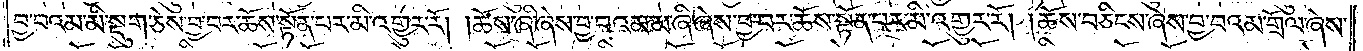བྱ་བའམ་མི་སྡུག་ཅེས་བྱ་བར་ཆོས་སྟོན་པར་མི་འགྱུར་རོ། །ཆོས་ཞི་ཞེས་བྱ་བའམ་མ་ཞི་ཞེས་བྱ་བར་ཆོས་སྟོན་པར་མི་འགྱུར་རོ། །ཆོས་བཅིངས་ཞེས་བྱ་བའམ་གྲོལ་ཞེས་
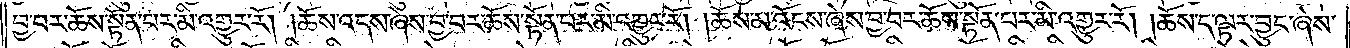བྱ་བར་ཆོས་སྟོན་པར་མི་འགྱུར་རོ། །ཆོས་འདས་ཞེས་བྱ་བར་ཆོས་སྟོན་པར་མི་འགྱུར་རོ། །ཆོས་མ་འོངས་ཞེས་བྱ་བར་ཆོས་སྟོན་པར་མི་འགྱུར་རོ། །ཆོས་ད་ལྟར་བྱུང་ཞེས་
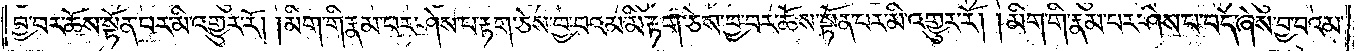བྱ་བར་ཆོས་སྟོན་པར་མི་འགྱུར་རོ། །མིག་གི་རྣམ་པར་ཤེས་པ་རྟག་ཅེས་བྱ་བའམ་མི་རྟག་ཅེས་བྱ་བར་ཆོས་སྟོན་པར་མི་འགྱུར་རོ། །མིག་གི་རྣམ་པར་ཤེས་པ་བདེ་ཞེས་བྱ་བའམ་
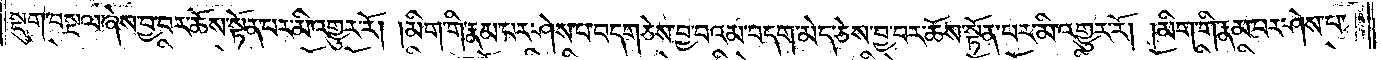སྡུག་བསྔལ་ཞེས་བྱ་བར་ཆོས་སྟོན་པར་མི་འགྱུར་རོ། །མིག་གི་རྣམ་པར་ཤེས་པ་བདག་ཅེས་བྱ་བའམ་བདག་མེད་ཅེས་བྱ་བར་ཆོས་སྟོན་པར་མི་འགྱུར་རོ། །མིག་གི་རྣམ་པར་ཤེས་པ་
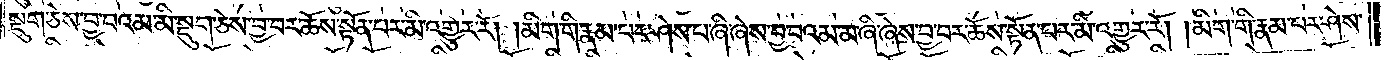སྡུག་ཅེས་བྱ་བའམ་མི་སྡུག་ཅེས་བྱ་བར་ཆོས་སྟོན་པར་མི་འགྱུར་རོ། །མིག་གི་རྣམ་པར་ཤེས་པ་ཞི་ཞེས་བྱ་བའམ་མ་ཞི་ཞེས་བྱ་བར་ཆོས་སྟོན་པར་མི་འགྱུར་རོ། །མིག་གི་རྣམ་པར་ཤེས་
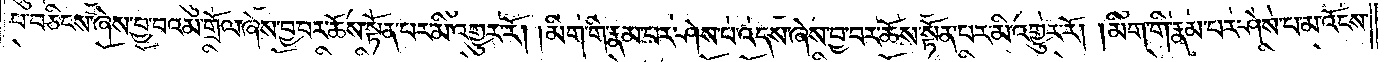པ་བཅིངས་ཞེས་བྱ་བའམ་གྲོལ་ཞེས་བྱ་བར་ཆོས་སྟོན་པར་མི་འགྱུར་རོ། །མིག་གི་རྣམ་པར་ཤེས་པ་འདས་ཞེས་བྱ་བར་ཆོས་སྟོན་པར་མི་འགྱུར་རོ། །མིག་གི་རྣམ་པར་ཤེས་པ་མ་འོངས་
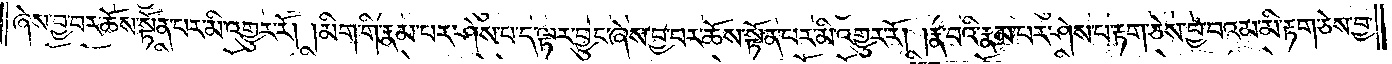ཞེས་བྱ་བར་ཆོས་སྟོན་པར་མི་འགྱུར་རོ། །མིག་གི་རྣམ་པར་ཤེས་པ་ད་ལྟར་བྱུང་ཞེས་བྱ་བར་ཆོས་སྟོན་པར་མི་འགྱུར་རོ། །རྣ་བའི་རྣམ་པར་ཤེས་པ་རྟག་ཅེས་བྱ་བའམ་མི་རྟག་ཅེས་བྱ་
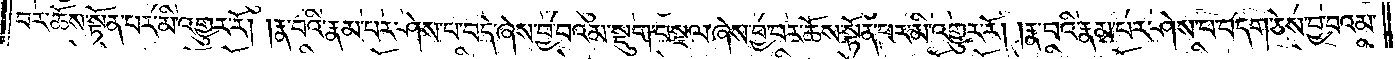བར་ཆོས་སྟོན་པར་མི་འགྱུར་རོ། །རྣ་བའི་རྣམ་པར་ཤེས་པ་བདེ་ཞེས་བྱ་བའམ་སྡུག་བསྔལ་ཞེས་བྱ་བར་ཆོས་སྟོན་པར་མི་འགྱུར་རོ། །རྣ་བའི་རྣམ་པར་ཤེས་པ་བདག་ཅེས་བྱ་བའམ་
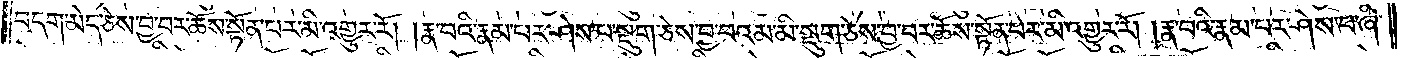བདག་མེད་ཅེས་བྱ་བར་ཆོས་སྟོན་པར་མི་འགྱུར་རོ། །རྣ་བའི་རྣམ་པར་ཤེས་པ་སྡུག་ཅེས་བྱ་བའམ་མི་སྡུག་ཅེས་བྱ་བར་ཆོས་སྟོན་པར་མི་འགྱུར་རོ། །རྣ་བའི་རྣམ་པར་ཤེས་པ་ཞི་
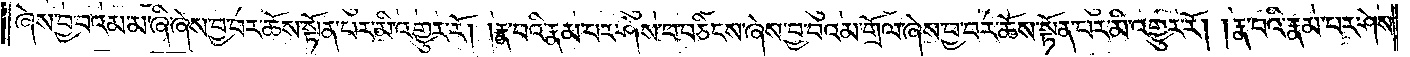ཞེས་བྱ་བའམ་མ་ཞི་ཞེས་བྱ་བར་ཆོས་སྟོན་པར་མི་འགྱུར་རོ། །རྣ་བའི་རྣམ་པར་ཤེས་པ་བཅིངས་ཞེས་བྱ་བའམ་གྲོལ་ཞེས་བྱ་བར་ཆོས་སྟོན་པར་མི་འགྱུར་རོ། །རྣ་བའི་རྣམ་པར་ཤེས་
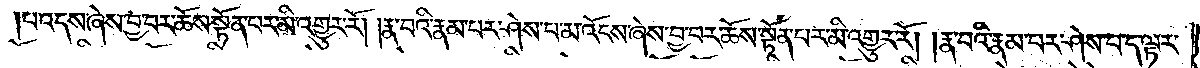པ་འདས་ཞེས་བྱ་བར་ཆོས་སྟོན་པར་མི་འགྱུར་རོ། །རྣ་བའི་རྣམ་པར་ཤེས་པ་མ་འོངས་ཞེས་བྱ་བར་ཆོས་སྟོན་པར་མི་འགྱུར་རོ། །རྣ་བའི་རྣམ་པར་ཤེས་པ་ད་ལྟར་
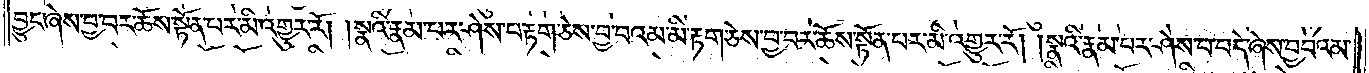བྱུང་ཞེས་བྱ་བར་ཆོས་སྟོན་པར་མི་འགྱུར་རོ། །སྣའི་རྣམ་པར་ཤེས་པ་རྟག་ཅེས་བྱ་བའམ་མི་རྟག་ཅེས་བྱ་བར་ཆོས་སྟོན་པར་མི་འགྱུར་རོ། །སྣའི་རྣམ་པར་ཤེས་པ་བདེ་ཞེས་བྱ་བའམ་
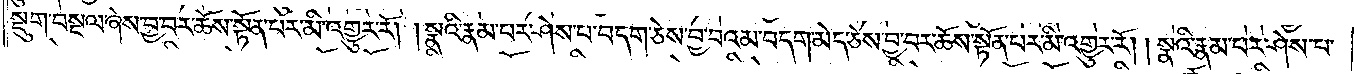སྡུག་བསྔལ་ཞེས་བྱ་བར་ཆོས་སྟོན་པར་མི་འགྱུར་རོ། །སྣའི་རྣམ་པར་ཤེས་པ་བདག་ཅེས་བྱ་བའམ་བདག་མེད་ཅེས་བྱ་བར་ཆོས་སྟོན་པར་མི་འགྱུར་རོ། །སྣའི་རྣམ་པར་ཤེས་པ་
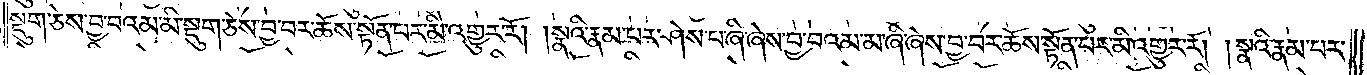སྡུག་ཅེས་བྱ་བའམ་མི་སྡུག་ཅེས་བྱ་བར་ཆོས་སྟོན་པར་མི་འགྱུར་རོ། །སྣའི་རྣམ་པར་ཤེས་པ་ཞི་ཞེས་བྱ་བའམ་མ་ཞི་ཞེས་བྱ་བར་ཆོས་སྟོན་པར་མི་འགྱུར་རོ། །སྣའི་རྣམ་པར་
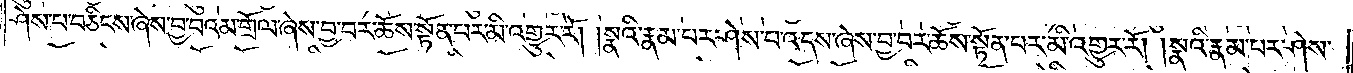ཤེས་པ་བཅིངས་ཞེས་བྱ་བའམ་གྲོལ་ཞེས་བྱ་བར་ཆོས་སྟོན་པར་མི་འགྱུར་རོ། །སྣའི་རྣམ་པར་ཤེས་པ་འདས་ཞེས་བྱ་བར་ཆོས་སྟོན་པར་མི་འགྱུར་རོ། །སྣའི་རྣམ་པར་ཤེས་
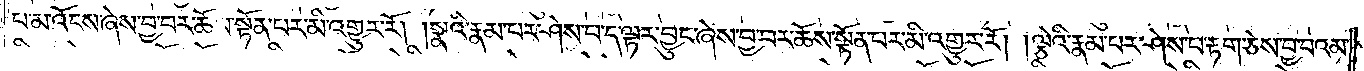པ་མ་འོངས་ཞེས་བྱ་བར་ཆོས་སྟོན་པར་མི་འགྱུར་རོ། །སྣའི་རྣམ་པར་ཤེས་པ་ད་ལྟར་བྱུང་ཞེས་བྱ་བར་ཆོས་སྟོན་པར་མི་འགྱུར་རོ། །ལྕེའི་རྣམ་པར་ཤེས་པ་རྟག་ཅེས་བྱ་བའམ་
